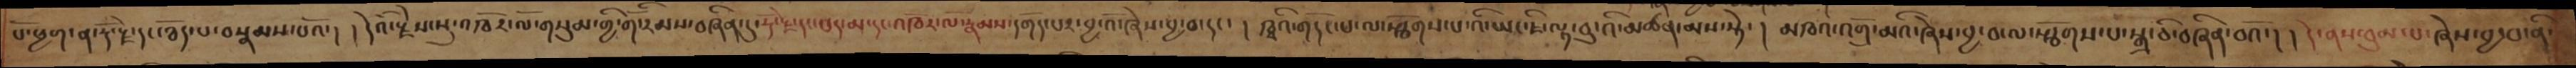པོ་ཕྱག་ན་རྡོ་རྗེ་དང་ཐོད་པ་བསྣམས་པའོ་། །དེའི་རྗེས་སུ་འཁོར་ལོ་གསུམ་གྱི་གོ་རིམས་བཞིན་དུ་རྡོ་རྗེ་དང་པད་མ་དང་འཁོར་ལོ་རྣམས་དགོད་པར་བྱ་འོ་ཞེས་བྱ་བ་དང་། ཁྭའི་གདོང་པ་ལ་སྩོགས་པ་འི་ཡང་ཇི་ལྟ་བུ་འི་མཚན་མས་སྟེ་། མཁའ་འགྲོ་མའི་ཞེས་བྱ་བ་ལ་སྩོགས་པ་སྒྲ་ཅི་བཞིན་་བའོ་། །དེ་ནས་ཕུལ་པ་ཞེས་བྱ་བ་ནི་
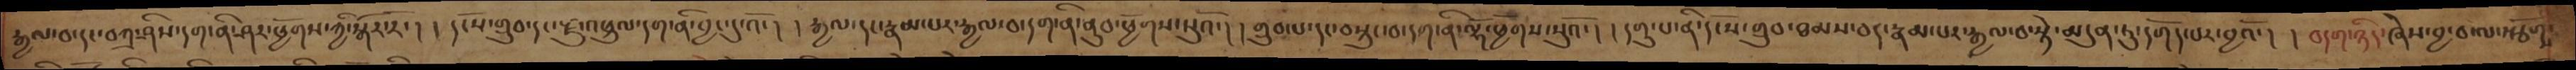རྒྱལ་བ་དང་བཀྲ་ཤིས་དག་ནི་ཤར་ཕྱོགས་ཀྱི་སྒོར་རོ་། །དངོས་གྲུབ་དང་རྫུ་འཕྲུལ་དག་ནི་བྱང་དུ་འོ་། །རྒྱལ་དང་རྣམ་པར་རྒྱལ་བ་དག་ནི་ནུབ་ཕྱོགས་སུའོ་། །གྲུབ་པ་དང་བསྲུང་བ་དག་ནི་ལྷོ་ཕྱོགས་སུའོ་། །དགུ་པ་ནི་དངོས་གྲུབ་ཐམས་ཅད་རྣམ་པར་རྒྱལ་བ་སྟེ་མདུན་ཏུ་དགོད་པར་བྱའོ་། །བདག་ཉིད་ཞེས་བྱ་བ་ལ་སྩོགས་
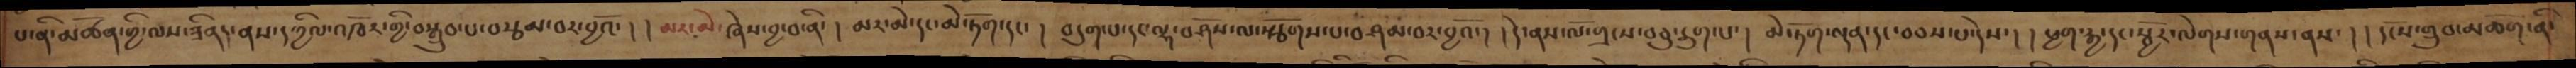པ་ནི་མཚན་གྱི་ལས་ཟིནད་ནས་དཀྱིལ་འཁོར་གྱི་བསྒྲུབ་པ་བརྩམ་པར་བྱའོ་། །མར་མེ་ཞེས་བྱ་བ་ནི་། མར་མེ་དང་མེ་ཏོག་དང་། བདུག་པ་དང་ལྷ་བཤོས་ལ་སྩོགས་པ་བཤམ་བར་བྱའོ་། །དེ་ནས་ལོ་གྲངས་བཅུ་དྲུག་པ་། མེ་ཏོག་ལྡན་དང་བཅས་པ་དེས་། །ཕྱག་རྒྱ་དང་སྦྱོར་ལེགས་གནས་ནས་།  །དངོས་གྲུབ་མཆོག་ནི་
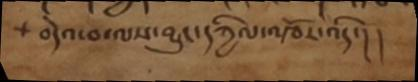བདེའ་བ་ལས་བྱུང་དཀྱིལ་འཁོར་འདི་།།
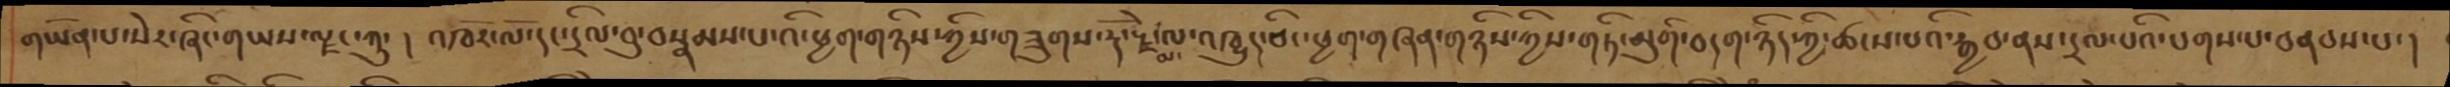གཡོན་པ་སེར་ཞིང་གཡས་ལྗང་ཀུ་ ། འཁོར་ལོ་དང་དྲིལ་བུ་བསྣམས་པ་འི་ཕྱག་གཉིས་ཀྱིས་གཟུགས་རྡོ་རྗེ་མ་ལ་འཁྱུད་ཅིང་ཕྱག་གཞན་གཉིས་ཀྱིས་གཏི་མུགི་བདག་ཉིད་ཀྱི་ཚངས་པའི་རྒྱབ་ནས་དྲལ་པའི་པགས་པ་བནབས་པ་ །
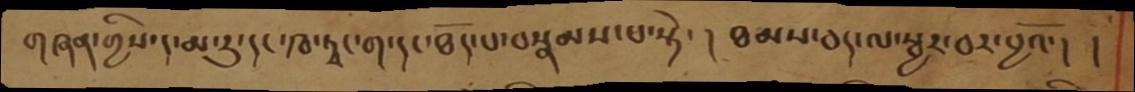གཞན་གྱིས་ད་མ་རུ་དང་ཁ་ཏྭང་ག་དང་ཐོད་པ་བསྣམས་པ་སྟེ་། ཐམས་ཅད་ལ་སྦྱར་བར་བྱའོ་། །
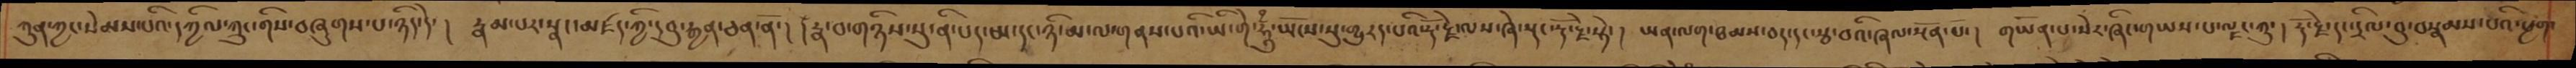ཀུན་ཀྱང་སེམས་པའི་དཀྱིལ་ཀྲུང་གིས་བཞུགས་པ་ཉིད་དེ་། རྣམ་པར་སྣང་མཛད་ཀྱི་དབུ་རྒྱན་ཅན་ནོ་། །རྣ་བ་གཉིས་སུ་ནི་པད་མ་དང་ཉི་མ་ལ་གནས་པའི་ཡི་གེ་ཧཱུྃ་ཡོངས་སུ་གྱུརད་པའི་རྡོ་རྗེ་ལས་ཞེ་སྡང་རྡོ་རྗེ་སྟེ་། ཡན་ལག་ཐམས་ཅད་དང་རྩ་བའི་ཞལ་སྔོན་པོ་། གཡོན་པ་སེར་ཞིང་གཡས་པ་ལྗང་ཀུ་། རྡོ་རྗེ་དང་དྲིལ་བུ་བསྣམས་པའི་ཕྱག་
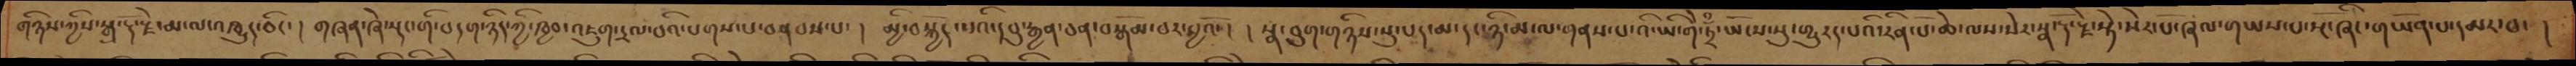གཉིས་ཀྱིས་སྒྲ་རྡོ་རྗེ་མ་ལ་འཁྱུད་ཅིང་། གཞན་ཞེ་སྡང་གི་བདག་ཉིད་ཀྱི་ཁྱབ་འཇུག་དྲལ་བའི་པགས་པ་བསྣབས་པ་། མྱི་བསྐྱོད་པའི་དབུ་རྒྱན་ཅན་བསྒོམ་བར་བྱའོ་། །སྣ་བུག་གཉིས་སུ་པད་མ་དང་ཉི་མ་ལ་གནས་པ་འི་ཡི་གེ་ཏྲྃ་ཡོངས་སུ་གུརད་པའི་རིན་པོ་ཆེ་ལས་སེར་སྣ་རྡོ་རྗེ་སྟེ་སེར་པོ་ཞལ་གཡས་པ་སྔོ་ཞིང་གཡོན་པ་དམར་བ་།
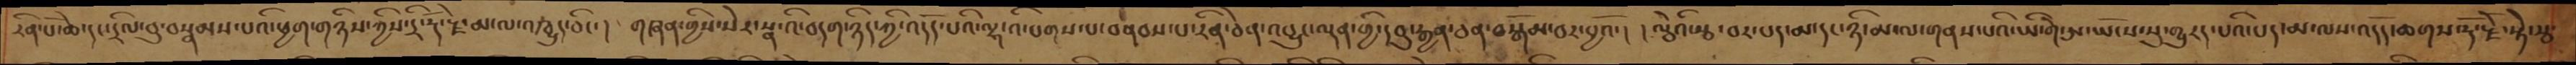རིན་པོ་ཆེ་དང་དྲིལ་བུ་བསྣམས་པའི་ཕྱག་གཉིས་ཀྱིས་དྲི་རྡོ་རྗེ་མ་ལ་འཁྱུད་ཅིང་། གཞན་གྱིས་སེར་སྣ་འི་བདག་ཉིད་ཀྱི་འདོད་པའི་ལྷ་འི་པགས་པ་བནབས་པ་རིན་ཅེན་འབྱུང་ལྡན་ཀྱི་དབུ་རྒྱན་ཅན་བསྒོམ་པར་བྱའོ་། །ལྕེའི་རྩ་བར་པད་མ་དང་ཉི་མ་ལ་གནས་པའི་ཡི་གེ་ཨ་ཡོངས་སུ་གྱུརད་པའི་པད་མ་ལས་འདོད་ཆགས་རྡོ་རྗེ་སྟེ་རྩ་
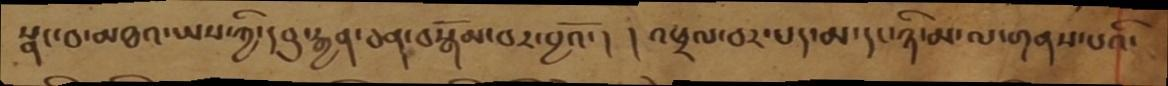སྣང་བ་མཐའ་ཡས་ཀྱི་དབུ་རྒྱན་ཅན་བསྒོམ་བར་བྱའོ་། །འཕྲལ་བར་པད་མ་དང་ཉི་མ་ལ་གནས་པའི་
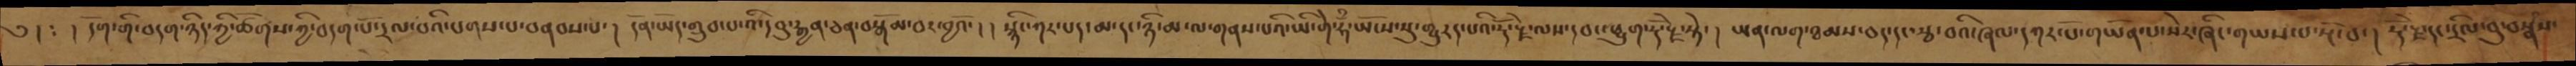༄། ཿ  ། དོག་གི་བདག་ཉིད་ཀྱི་ཚོགས་ཀྱི་བདག་པོ་དྲལ་བའི་པགས་པ་བནབས་པ་། དོན་ཡོད་གྲུབ་པའི་དབུ་རྒྱན་ཅན་བསྒོམ་བར་བྱའོ་། །སྙིང་ཀར་པད་མ་རང་ཉི་མ་ལ་གནས་པའི་ཡི་གེ་ཧྃ་ཡོངས་སུ་གྱུརད་པའི་རྡོ་རྗེ་ལས་དབང་ཕྱུག་རྡོ་རྗེ་སྟེ་། ཡན་ལག་ཐམས་ཅད་དང་རྩ་བའི་ཞལ་དཀར་པོ་གཡོན་པ་སེར་ཞིང་གཡས་པ་སྔོ་བ་། རྡོ་རྗེ་དང་དྲིལ་བུ་བསྣཾས་
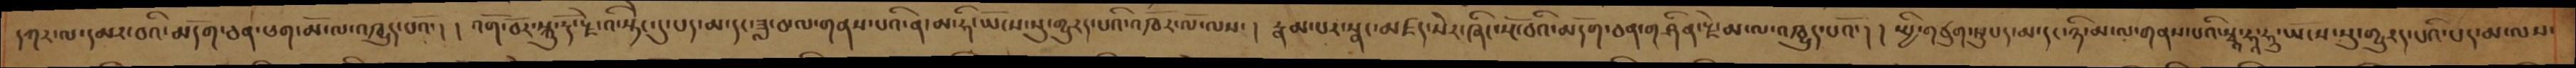དཀར་ལ་དམར་བའི་མདོག་ཅན་ཕག་མོ་ལ་འཁྱུད་པའོ་། །འགོ་བོར་སྐུ་རྡོ་རྗེ་འི་སྟེང་དུ་པད་མ་དང་ཟླ་བ་ལ་གནས་པའི་ན་མ་ཧི་ཡོངས་སུ་གྱུརད་པའི་འཁོར་ལོ་ལས་། རྣམ་པར་སྣང་མཛད་སེར་ཞིང་སྔོ་བའི་མདོག་ཅན་གཤིན་རྗེ་མ་ལ་འཁྱུད་པའོ་། །སྤྱི་གཙུག་ཏུ་པད་མ་དང་ཉི་མ་ལ་གནས་པའི་སྭཱ་ཧཱ་ཧུ་ཡོངས་སུ་གྱུརད་པའི་པད་མ་ལས་
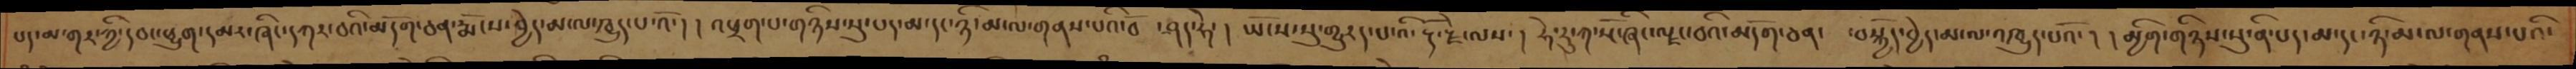པད་མ་གར་ཀྱི་དབང་ཕྱུག་དམར་ཞིང་དཀར་བའི་མདོག་ཅན་རྨོངས་བྱེད་མ་ལ་ཁྱུད་པ་འོ་། །འཕྲག་པ་གཉིས་སུ་པད་མ་དང་ཉི་མ་ལ་གནས་པའི་བོ་ཤད་ཧེ་ ། ཡོངས་སུ་གྱུརད་པ་འི་རྡོ་རྗེ་ལས་ ། ཧེ་རུ་ཀ་སོ་ཞིང་ལྗང་བའི་མདོག་ཅན་  བསྐྱེད་བྱེད་མ་ལ་འཁྱུད་པའོ་ ། །མྱིག་གཉིས་སུ་ནི་པད་མ་དང་ཉི་མ་ལ་གནས་པའི་
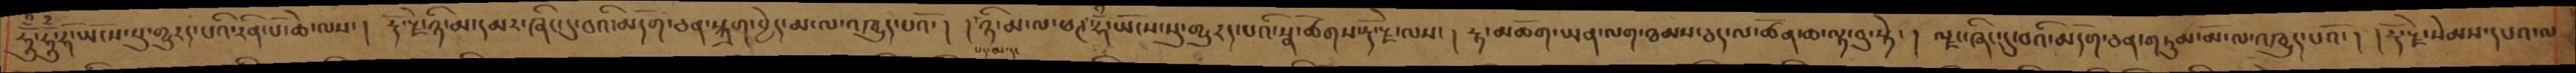ཧཱུྃ་ཧཱུྃ་ཧོ་ཡོངས་སུ་གྲུརད་པའི་རིན་པོ་ཆེ་ལས་ ། རྡོ་རྗེ་ཉི་མ་དམར་ཞིང་དུ་བའི་མདོག་ཅན་སྐྲག་བྱེད་མ་ལ་འཁྱུད་པའོ་ ། །ཉི་མ་ལ་ཕཊ་ཧྃ་ཡོངས་སུ་གྱུརད་པའི་སྣ་ཚོགས་རྡོ་རྗེ་ལས་ ། རྟ་མཆོག་ཡན་ལག་ཐམས་ཅད་ལ་ཚོན་ཆ་ལྟ་བུ་སྟེ་ ། ལྗང་ཞིང་དུ་བའི་མདོག་ཅན་གཏུམ་མོ་ལ་འཁྱུད་པའོ་ ། །རྡོ་རྗེ་སེམས་དཔའ་ལ
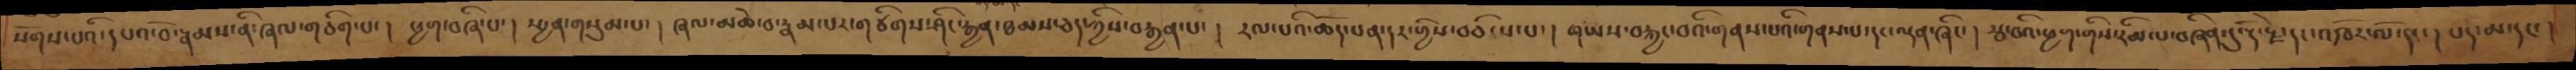སོགས་པའི་དཔའ་བོ་རྣམས་ནི་ཞལ་གཅིག་པ་ ། ཕྱག་བཞི་པ་ ། སྤྱན་གསུམ་པ་། ཞལ་མཆེ་བ་རྣམ་པར་གཙིགས་ཤིང་རྒྱན་ཐམས་ཅད་ཀྱིས་བརྒྱན་པ་ ། རལ་པའི་ཆོད་པན་དར་གྱིས་བཅིངས་པ་ ། གཡས་བརྐྱང་བའི་གནས་པའི་གནས་པ་དང་ལྡན་ཞིང་ ། རྩ་བའི་ཕྱག་གིས་རིམ་པ་བཞིན་དུ་རྡོ་རྗེ་དང་འཁོར་ལོ་དང་ ། པད་མ་དང་ །
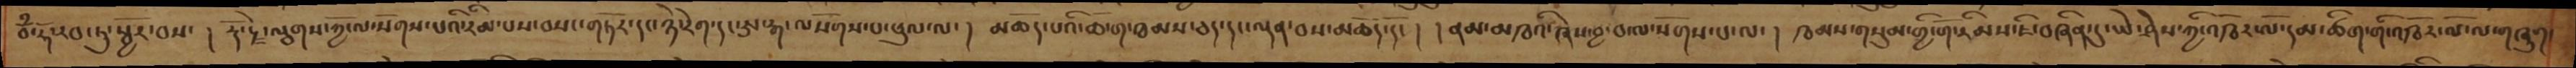བྃ་ཧོ་རབ་ཏུ་སྦྱོར་བས་ ། རྡོ་རྗེ་ལྕགས་ཀྱོ་ལ་སོགས་པའི་རིམ་པས་བསང་གཏོར་དང་ཉེ་རེག་དང་ཨ་རྒ་ལསོགས་པ་ཕུལ་ལ ། མཆོད་པའི་ཆོ་ག་ཐམས་ཅད་དང་ལྡན་བས་མཆོད་དོ་ ། །ནམ་མཁའི་ཞེས་བྱ་བ་ལ་སོགས་པ་ལ་ ། ཁམས་གསུམ་གྱི་གོ་རིམས་ཇི་བཞིན་དུ་ཡེ་ཤེས་ཀྱི་འཁོར་ལོ་དམ་ཚིག་གི་འཁོར་ལོ་ལ་གཞུག་
